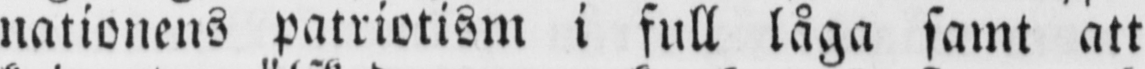nationens patriotism i full låga samt att
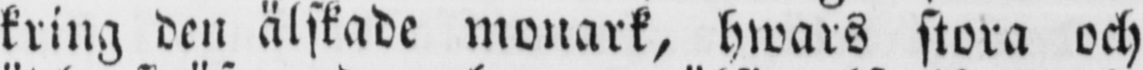kring den älskade monark, hwars stora och
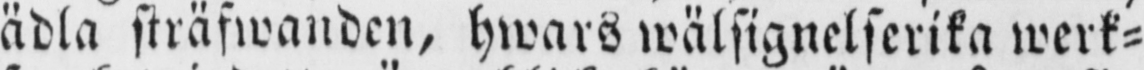ädla sträfwanden, hwars wälsignelserika werk-
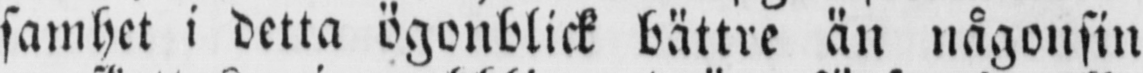samhet i detta ögonblick bättre än någonsin
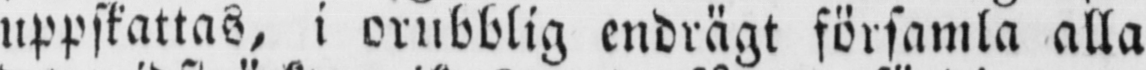uppskattas, i orubblig endrägt församla alla
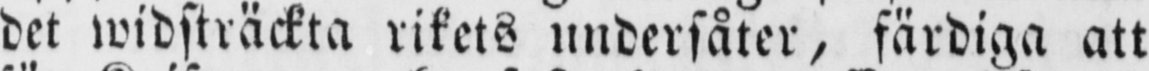det widsträckta rikets undersåter, färdiga att
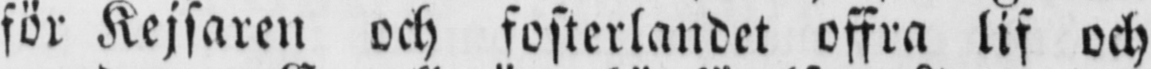för Kejsaren och fosterlandet offra lif och
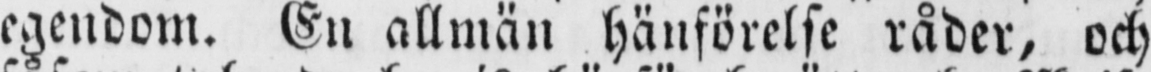egendom. En allmän hänförelse råder, och
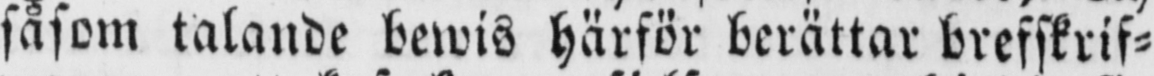såsom talande bewis härför berättar brefskrif-
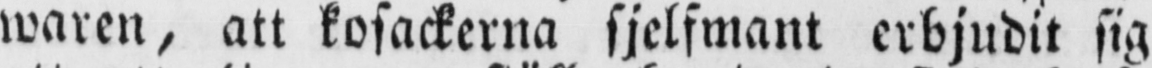waren, att kosackerna sjelfmant erbjudit sig
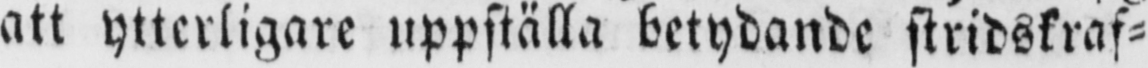att ytterligare uppställa betydande stridskraf-
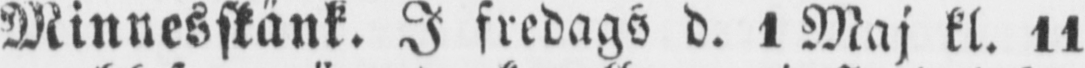Minnesskänk. I fredags d. 1 Maj kl. 11
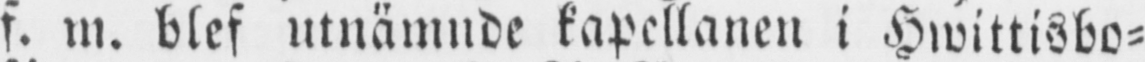f. m. blef utnämnde kapellanen i Hwittisbo-
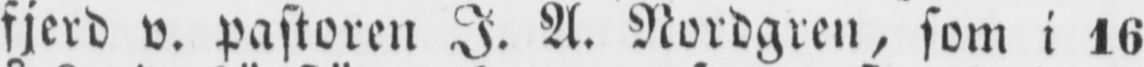fjerd v. pastoren I. A. Nordgren, som i 16
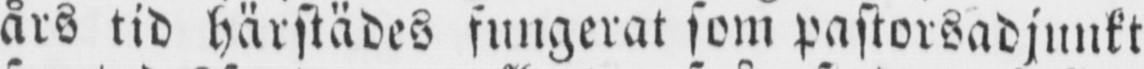års tid härstädes fungerat som pastorsadjunkt
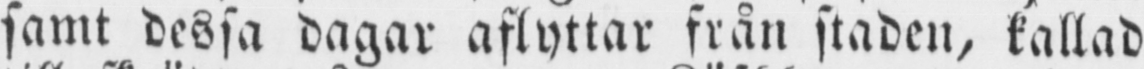samt dessa dagar aflyttar från staden, kallad
